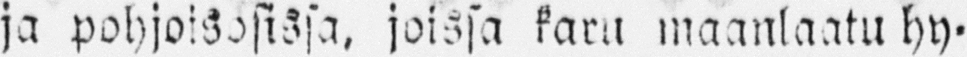ja pohjoisosissa, joissa karu maanlaatu hy-
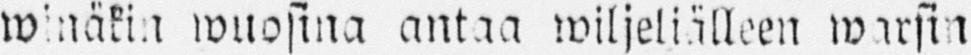winäkin wuosina antaa wiljeljälleen warsin
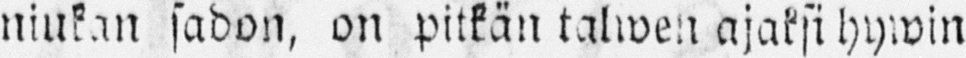niukan sadon, on pitkän talwen ajaksi hywin
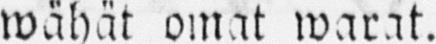wähät omat warat.
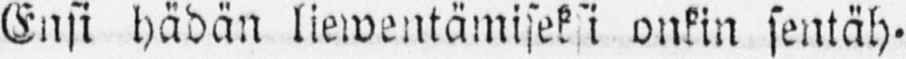Ensi hädän liewentämiseksi onkin sentäh-
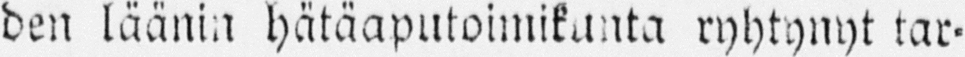den läänin hätäaputoimikunta ryhtynyt tar-
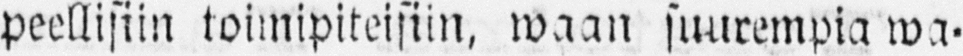peellisiin toimipiteisiin, waan suurempia wa-
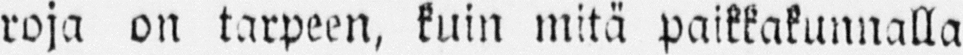roja on tarpeen, kuin mitä paikkakunnalla
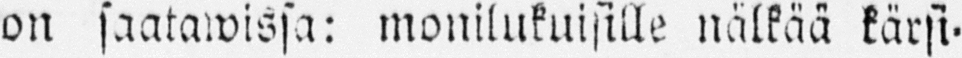on saatawissa: monilukuisille nälkää kärsi-
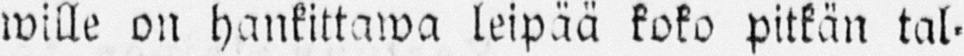wille on hankittawa leipää koko pitkän tal-
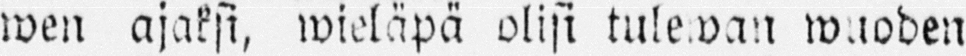wen ajaksi, wieläpä olisi tulewan wuoden
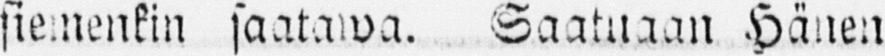siemenkin saatawa. Saatuaan Hänen Yl-
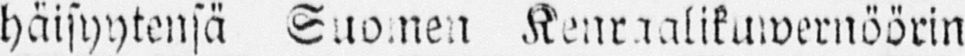häisyytensä Suomen Kenraalikuwernöörin
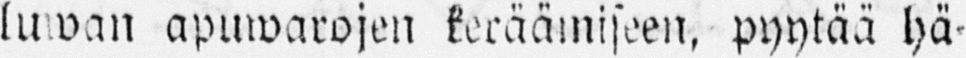luwan apuwarojen keräämiseen, pyytää hä-
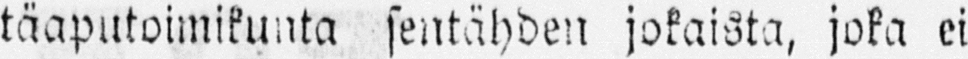täaputoimikunta sentähden jokaista, joka ei
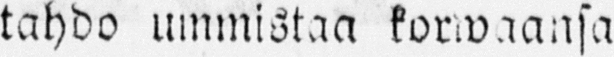tahdo ummistaa korwaansa hätääntyneitten
